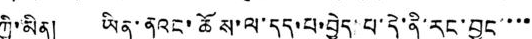ཀྱི་མིན། ཡིན་ནའང་ཆོས་ལ་དད་པ་བྱེད་པ་དེ་ནི་རང་བྱུང་་་་
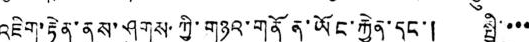འཇིག་རྟེན་ནུས་ཤུགས་ཀྱི་གཉའ་གནོན་ཡོང་རྐྱེན་དང་། སྤྱི་་་་
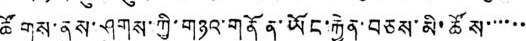ཚོགས་ནུས་ཤུགས་ཀྱི་གཉའ་གནོན་ཡོང་རྐྱེན་བཅས་མི་ཚོས་་་་་་
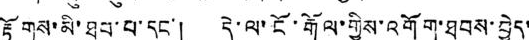རྟོགས་མི་ཐུབ་པ་དང་། དེ་ལ་ངོ་རྒོལ་གྱིས་འགོག་ཐབས་བྱེད་
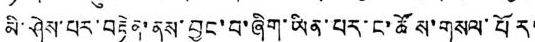མི་ཤེས་པར་བརྟེན་ནས་བྱུང་བ་ཞིག་ཡིན་པར་ང་ཚོས་གསལ་པོར་
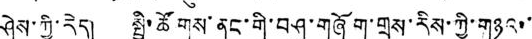ཤེས་ཀྱི་རེད། སྤྱི་ཚོགས་ནང་གི་བཤུ་གཞོག་གྲས་རིས་ཀྱི་གཉའ་་
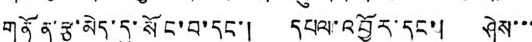གནོན་རྩ་མེད་དུ་སོང་བ་དང་། དཔལ་འབྱོར་དང་། ཤེས་་་
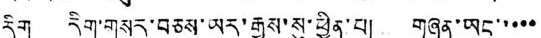རིག རིག་གསར་བཅས་ཡར་རྒྱས་སུ་ཕྱིན་པ། གཞན་ཡང་་་་་
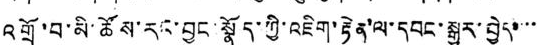འགྲོ་བ་མི་ཚོས་རང་བྱུང་སྣོད་ཀྱི་འཇིག་རྟེན་ལ་དབང་སྒྱུར་བྱེད་་་་
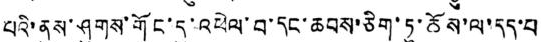པའི་ནུས་ཤུགས་གོང་དུ་འཕེལ་བ་དང་ཆབས་ཅིག་ཏུ་ཆོས་ལ་དད་པ
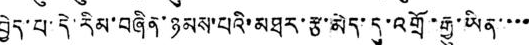བྱེད་པ་དེ་རིམ་བཞིན་ཉམས་པའི་མཐར་རྩ་མེད་དུ་འགྲོ་རྒྱུ་ཡིན་་་་
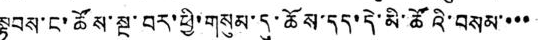སྟབས་ང་ཚོས་སྔ་བར་ཕྱི་གསུམ་དུ་ཆོས་དད་དེ་མི་ཚོའི་བསམ་་་་
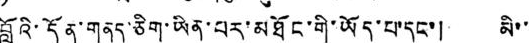བློའི་དོན་གནད་ཅིག་ཡིན་པར་མཐོང་གི་ཡོད་པ་དང་། མི་་
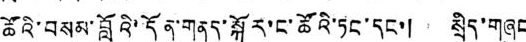ཚོའི་བསམ་བློའི་དོན་གནད་སྐོར་ང་ཚོའི་ཏང་དང་། སྲིད་གཞུང
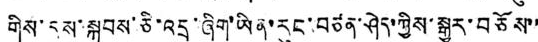གིས་དུས་སྐབས་ཅི་འདྲ་ཞིག་ཡིན་རུང་བཙན་ཤེད་ཀྱིས་སྒྱུར་བཅོས་་
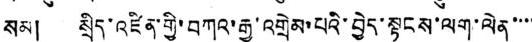སམ། སྲིད་འཛིན་གྱི་བཀའ་རྒྱ་འགྲེམ་པའི་བྱེད་སྟངས་ལག་ལེན་་་་
